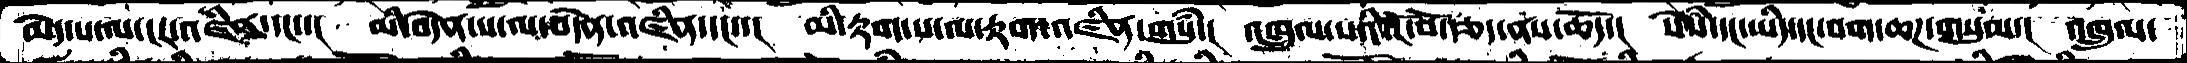མེད་པ་ལ་ངར་འཛིན་དང་་།  མི་བདེན་པ་ལ་བདེན་འཛིན་དང་་།  མི་རྟག་པ་ལ་རྟག་འཛིན་གསུཾ་།  འཁྲུལ་པའི་ངོ་བོ་རྩད་ནས་ཆོད་།  སེཾས་དང་ཡིད་དང་བག་ཆཌ་གསུམ་།  འཁྲུལ་
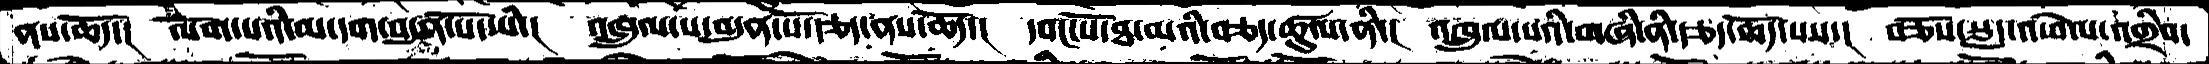ནས་ཆོད་།  ལོག་པའི་མ་དག་བདུན་པོ་ཡི་།  འཁྲུལ་པ་བདུན་པོ་རྩད་ནས་ཆོད་།  དབང་པོ་ཐ་མའི་བཅད་ཚུལ་ནི་།  འཁྲུལ་པའི་གཞི་ནི་རྩད་ཆོད་པས་།  བཅོས་སླད་འཕེལ་འགྲིབ་
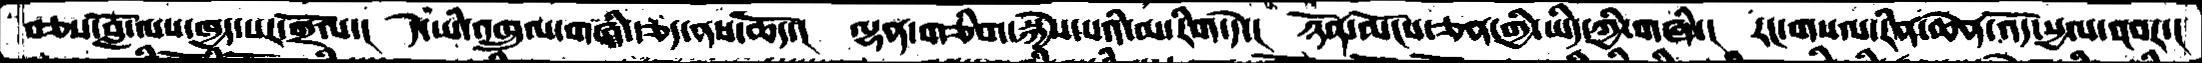བཅས་བློ་ལས་ཁྱད་པར་གྲོལ་།  དེ་ཡི་འཁྲུལ་གཞི་རྩད་ནས་ཆོད་།  ལྷན་གཅིག་སྐྱེས་པའི་མ་རིག་དེ་།  ཉོན་མོངས་ཅན་གྱི་ཡིད་ཀྱི་གཞི་།  རང་གསལ་རིན་ཆེན་འོད་སྱལ་འབར་།
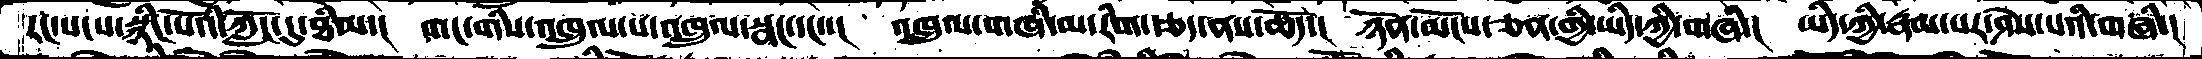རང་སངས་སྙིང་པོའི་ཀློང་དུ་ཐིམ་།  གང་གིས་འཁྲུལ་པ་འཁྲུལ་སྣང་དང་་།  འཁྲུལ་གཞི་མ་རིག་རྩད་ནས་ཆོད་།  ཉོན་མོངས་་ཅན་གྱི་ཡིད་ཀྱི་གཞི་།  ཡིད་ཀྱི་རྣམ་པར་ཤེས་པའི་གཞི་།
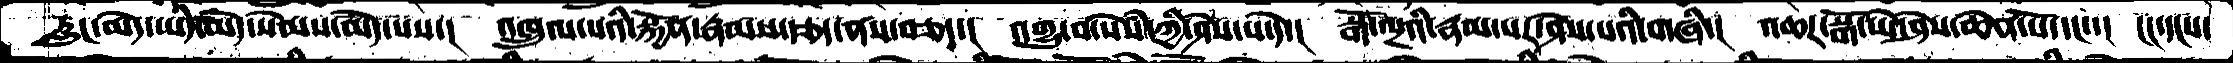རླང་མེད་ཡིད་མེད་སེམས་མེད་པས་།  འཁྲུལ་པའི་སྐྱོན་རྣམས་རྩད་ནས་བཅད་།  འགྱུ་བ་སེམས་ཀྱི་ཤེས་པ་དེ་།  སྒོ་ལྔའི་རྣམ་པར་ཤེས་པའི་གཞི་།  འཆར་སྒོ་ཡེ་ཤེས་ཆེན་པོ་དང་་།  ངང་དངས་
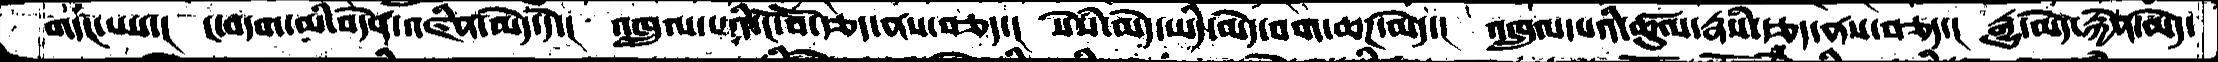གདང་པས་།  ང་བདག་མི་བདེན་འཛིན་མེད་དེ་།  འཁྲུལ་པའི་ངོ་བོ་རྩད་ནས་བཅད་།  སེསཾ་མེད་ཡིད་མེད་བག་ཆཌ་མེད་།  འཁྲུལ་པའི་ཚུལ་རྣྱཾས་རྩད་ནས་བཅད་།  རྒྱུ་མེད་རྐྱེན་མེད་
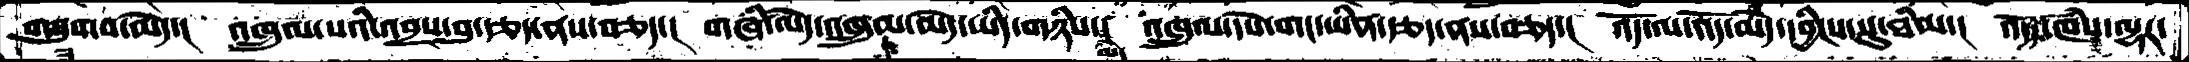གཟུགས་མེད་། འཁྲུལ་པའི་འབྲས་བུ་རྩད་ནས་བཅད་། གཞི་མེད་འཁྲུལ་མེད་ཡིད་གཉིས་མེད་། འཁྲུལ་དཔེ་གང་ཡིན་རྩད་ནས་བཅད་། འོད་ལ་འོད་མེད་དབྱིངས་སུ་ཐིམ་། འདོད་ཁཾས་ལྷར་
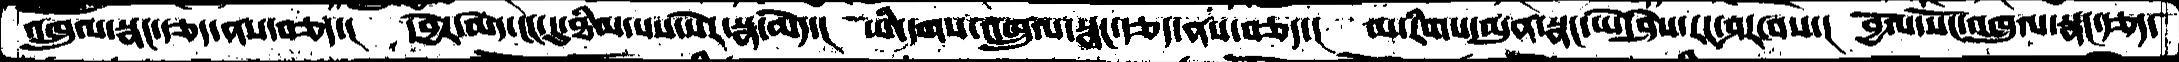འཁྲུལ་སྣང་རྩད་ནས་བཅད་།  དབྱེར་མེད་ངང་དུ་ཐིམ་པས་སེར་སྣ་མེད་།  ཡི་དགས་འཁྲུལ་སྣང་རྩད་ནས་བཅད་།  མ་རིགས་མུན་སྣང་ཡེ་ཤེས་རང་ཤར་བས་།  བྱོལ་སོང་འཁྲུལ་སྣང་རྩད་
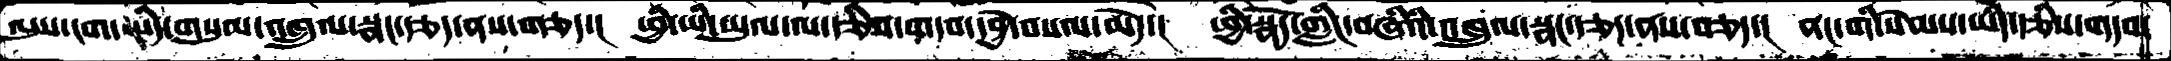ལུས་ངག་ཡིད་གསུམ་འཁྲུལ་སྣང་རྩད་ནས་གཅད་།  ཕྱི་ཡི་ཡུལ་ལ་རྩིས་གདབ་དབྱེ་བསལ་མེད་།  ཕྱི་སྣོད་གླིང་བཞིའི་འཁྲུལ་སྣང་རྩད་ནས་བཅད་།  ནང་གི་སེམས་ཡིད་རྩིས་གདབ་
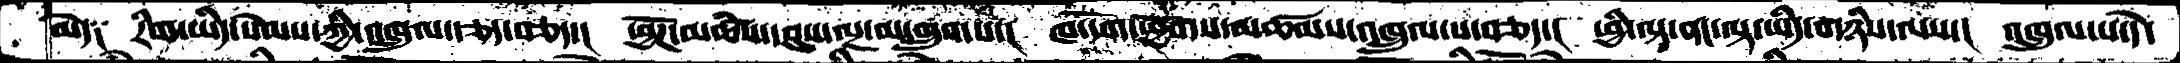མེད༑  རིག་ཡིད་སེམས་ཀྱི་འཁྲུལ་རྩད་བཅད་།  ཕྱོཌ་མཚིས་དབུས་ལྔ་མ་གྲུབ་པ་།  ཁ་དོག་ཕྱོགས་མཚམས་འཁྲུལ་པ་བཅད་།  ཕྱི་ལྟ་ནང་ལྟ་ཡིད་གཉིས་ལས་།  འཁྲུལ་པ་དེ་
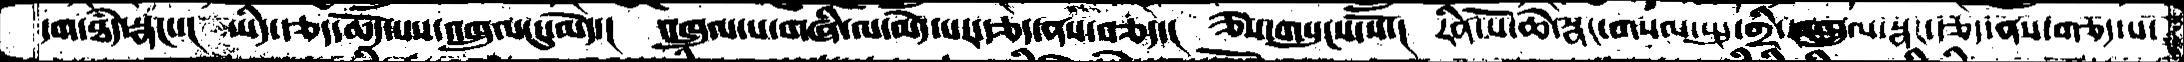དག་ཐདཾ་སྣང་།   ཡིད་རྩད་ཆོད་པས་འཁྲུལ་དུ་མེད་།  འཁྲུལ་པ་གཞི་ལ་མེད་པར་རྩད་ནས་བཅད་།  ཅེས་གསུངས་སོ་།  རིན་པོ་ཆེ་སྣང་གསལ་སྤུ་གྲི་འཁྲུལ་སྣང་རྩད་ནས་གཅད་པ་
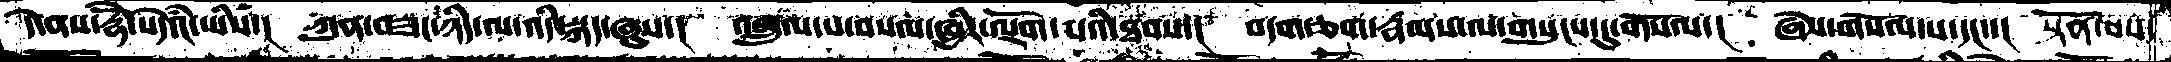དེ་ནས་རྡོེ་སེདཾའ་ཡིས་།  ཀུན་བཟང་ཉིད་ལ་འདི་སྐད་ཞུས་།  འཁྲུལ་པ་བསལ་ཕྱིར་ལྡོག་པའི་ཐབས་།  བདག་ཅག་རྣམས་ལ་གསུངས་དུ་གསོལ་།  ཞེས་གསོལ་པ་དང་་།  སྟོན་པས་
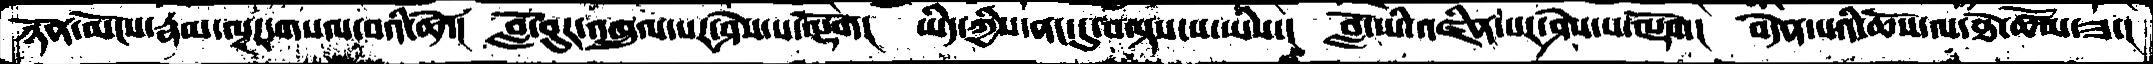ཉོན་མོངས་རྣམ་ལྔར་གསལ་བའི་ཚེ་།  བློ་བུར་འཁྲུལ་པར་ཤེས་པ་ལྡོག།  ཡིད་ཀྱིས་ནང་དུ་བལྟས་པ་ཡིས་།  བློ་ཡི་འཛིན་པར་ཤེས་པ་ལྡོག།  བདེན་པའི་ཆོས་ལ་ཐེ་ཚོམ་ཟ་།
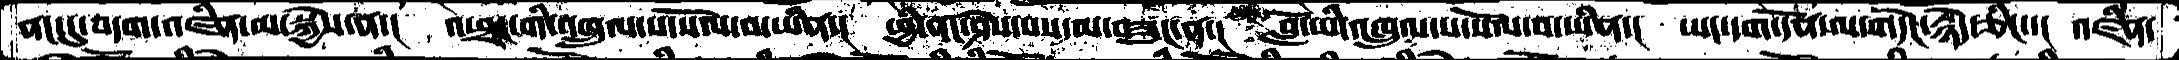ནང་དུ་བདག་འཛིན་མ་སྐྱེ་ན་།  འཕྲང་གི་འཁྲུལ་པ་སོལ་བ་ཡིན་།  ཕྱི་ནང་ཤེས་པས་མ་བཟུང་ན་།  བློ་ཡི་འཁྲུལ་པ་སོལ་བ་ཡིན་།   ཡང་དག་དོན་ལ་གདེང་རྙེད་ཅིང་་།  འཛིན་
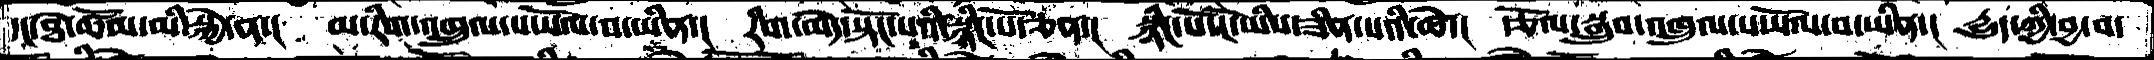དང་ཐེ་ཚོམ་མི་སྐྱེ་ན་།  མ་རིག་འཁྲུལ་པ་སོལ་བ་ཡིན་།  རིག་མེད་སྟོང་པའི་སྙིང་པོ་ཅན་།  སྙིང་པོ་ངོ་ཡིས་ཟིན་པའི་ཚེ་།  རྩོལ་སྒྲུབ་འཁྲུལ་་པ་སོལ་བ་ཡིན་།  དྱུད་ཀྱི་བྱ་བ་
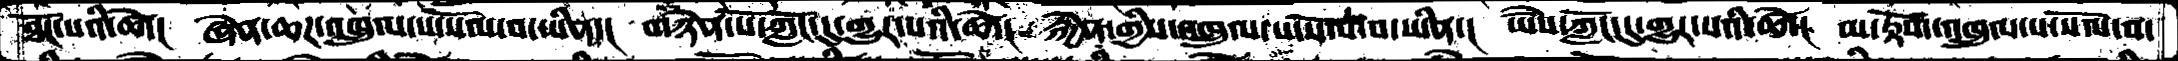ཐོང་པའི་ཚེ་།  ཞེན་ཆཌ་འཁྲུལ་པ་སོལ་བ་ཡིན་།  གཉེན་པོ་ཀློང་དུ་གྱུར་པའི་ཚེ་།  རྐྱེན་གྱིས་འཁྲུལ་པ་སོལ་བ་ཡིན་།  ཡཻས་ཀློང་དུ་གྱུར་པའི་ཚེ་།  མ་རྟོག་འཁྲུལ་པ་སོལ་བ་
